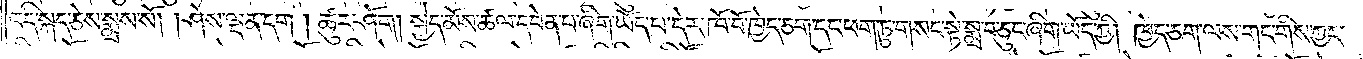འདི་སྐད་ཅེས་སྨྲས་སོ། །ཤེས་ལྡན་དག །ཚུར་ཤོག །སྐྱེད་མོས་ཚལ་དབེན་པ་ཞིག་ཡོད་པ་དེར་ཁོ་བོ་ཁྱེད་ཅག་དང་ཕག་ཏུ་གསང་སྟེ་སྨྲ་བ་ཅུང་ཞིག་ཡོད་ཀྱི། ཁྱེད་ཅག་ལས་གང་གིས་ཀྱང་
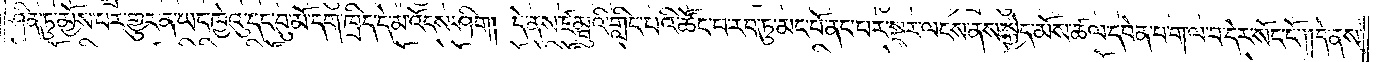ཤིན་ཏུ་མྱོས་པར་གྱུར་ན་ཡང་ཁྱེའུ་དང་བུ་མོ་དག་ཁྲིད་དེ་མ་འོངས་ཤིག། དེ་ནས་ཛམྦུའི་གླིང་པའི་ཚོང་པ་རབ་ཏུ་མང་པོ་ནང་པར་སྔར་ལངས་ནས་སྐྱེད་མོས་ཚལ་དབེན་པ་ག་ལ་བ་དེར་སོང་ངོ༌། །དེ་ནས་
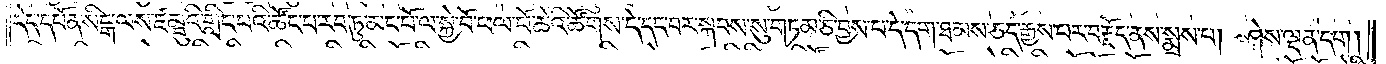དེད་དཔོན་སིངྒ་ལས་ཛམྦུའི་གླིང་པའི་ཚོང་པ་རབ་ཏུ་མང་པོ་ལ་སྐྱེ་བོ་ཕལ་པོ་ཆེའི་ཚོགས་དེ་དང་བར་སྐབས་སུ་གཏམ་ཅི་བྱས་པ་དེ་དག་ཐམས་ཅད་རྒྱས་པར་བརྗོད་ནས་སྨྲས་པ། ཤེས་ལྡན་དག །
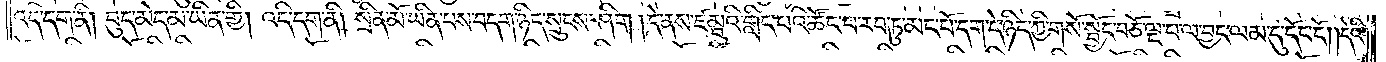འདི་དག་ནི། བུད་མེད་མ་ཡིན་གྱི། འདི་དག་ནི། སྲིན་མོ་ཡིན་པས་བདག་ཉིད་སྲུང་ཤིག །དེ་ནས་ཛམྦུའི་གླིང་པའི་ཚོང་པ་རབ་ཏུ་མང་པོ་དག་དེ་ཉིད་ཀྱི་གསོ་སྦྱོང་བཅོ་ལྔ་པ་ལ་བྱང་ལམ་དུ་དོང་ངོ༌། །དེའི་
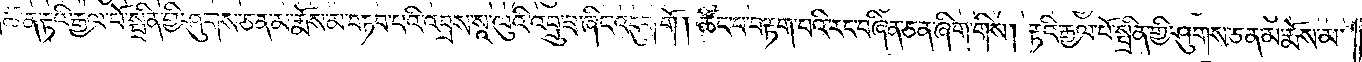ཚེ་ན་རྟའི་རྒྱལ་པོ་སྤྲིན་གྱི་ཤུགས་ཅན་མ་རྨོས་མ་བཏབ་པའི་འབྲས་སཱ་ལུའི་འབྲུ་ཟ་ཞིང་འདུག་གོ། ཚོང་པ་བརྟག་པའི་རང་བཞིན་ཅན་ཞིག་གིས། རྟའི་རྒྱལ་པོ་སྤྲིན་གྱི་ཤུགས་ཅན་མ་རྨོས་མ་
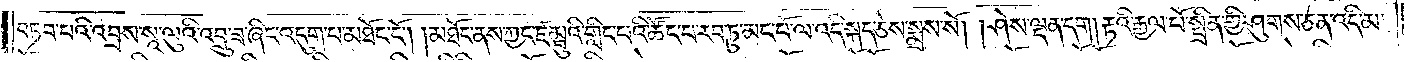བཏབ་པའི་འབྲས་སཱ་ལུའི་འབྲུ་ཟ་ཞིང་འདུག་པ་མཐོང་ངོ༌། །མཐོང་ནས་ཀྱང་ཛམྦུའི་གླིང་པའི་ཚོང་པ་རབ་ཏུ་མང་པོ་ལ་འདི་སྐད་ཅེས་སྨྲས་སོ། །ཤེས་ལྡན་དག། རྟའི་རྒྱལ་པོ་སྤྲིན་གྱི་ཤུགས་ཅན་འདི་མ་
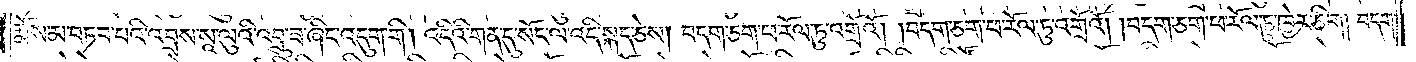རྨོས་མ་བཏབ་པའི་འབྲས་སཱ་ལུའི་འབྲུ་ཟ་ཞིང་འདུག་གི། འདིའི་གན་དུ་སོང་ལ་འདི་སྐད་ཅེས། བདག་ཅག་ཕ་རོལ་ཏུ་འགྲོའོ། །བདག་ཅག་ཕ་རོལ་ཏུ་འགྲོའོ། །བདག་ཅག་ཕ་རོལ་ཏུ་ཁྱེར་ཅིག། བདག་
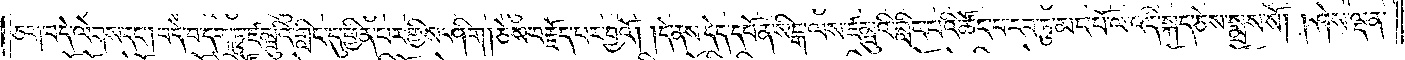ཅག་བདེ་ལེགས་དང༌། བདེ་བ་དག་ཏུ་ཛམྦུའི་གླིང་དུ་ཕྱིན་པར་གྱིས་ཤིག། ཅེས་བརྗོད་པར་བྱའོ། །དེ་ནས་དེད་དཔོན་སིངྒ་ལས་ཛམྦུའི་གླིང་པའི་ཚོང་པ་རབ་ཏུ་མང་པོ་ལ་འདི་སྐད་ཅེས་སྨྲས་སོ། །ཤེས་ལྡན་
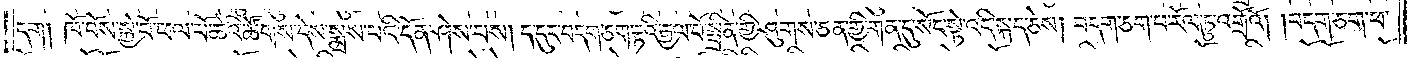དག། ཁོ་བོས་སྐྱེ་བོ་ཕལ་པོ་ཆེའི་ཚོགས་དེས་སྨྲས་པའི་དོན་ཤེས་པས། ད་དུང་བདག་ཅག་རྟའི་རྒྱལ་པོ་སྤྲིན་གྱི་ཤུགས་ཅན་གྱི་གན་དུ་སོང་སྟེ་འདི་སྐད་ཅེས། བདག་ཅག་ཕ་རོལ་ཏུ་འགྲོའོ། །བདག་ཅག་ཕ་
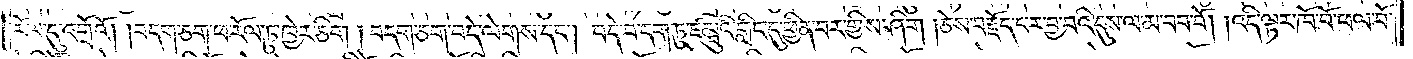རོལ་དུ་འགྲོའོ། །བདག་ཅག་ཕ་རོལ་ཏུ་ཁྱེར་ཅིག། བདག་ཅག་བདེ་ལེགས་དང༌། བདེ་བ་དག་ཏུ་ཛམྦུའི་གླིང་དུ་ཕྱིན་པར་གྱིས་ཤིག །ཅེས་བརྗོད་པར་བྱ་བའི་དུས་ལ་མ་བབ་བོ། །འདི་ལྟར་ཁོ་བོ་ཕལ་པོ་
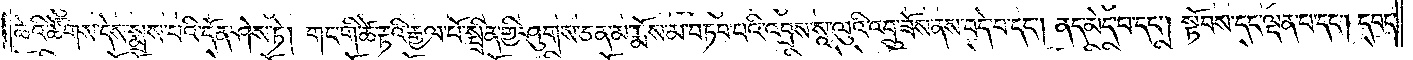ཆེའི་ཚོགས་དེས་སྨྲས་པའི་དོན་ཤེས་ཏེ། གང་གི་ཚེ་རྟའི་རྒྱལ་པོ་སྤྲིན་གྱི་ཤུགས་ཅན་མ་རྨོས་མ་བཏབ་པའི་འབྲས་སཱ་ལུའི་འབྲུ་ཟོས་ནས་བདེ་བ་དང༌། ནད་མེད་པ་དང༌། སྟོབས་དང་ལྡན་པ་དང༌། དབང་
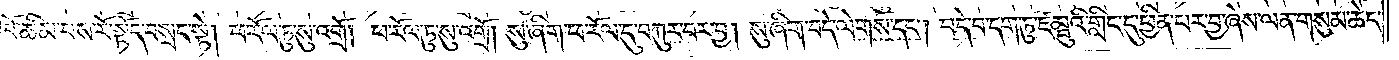པོ་ཚིམ་པས་རོ་སྟོད་བསྲང་སྟེ། ཕ་རོལ་ཏུ་སུ་འགྲོ། ཕ་རོལ་ཏུ་སུ་འགྲོ། སུ་ཞིག་ཕ་རོལ་དུ་བཀུར་བར་བྱ། སུ་ཞིག་བདེ་ལེགས་དང༌། བདེ་བ་དག་ཏུ་ཛམྦུའི་གླིང་དུ་ཕྱིན་པར་བྱ་ཞེས་ལན་གསུམ་ཆེད་
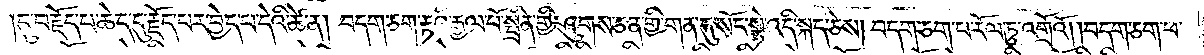།དུ་བརྗོད་པ་ཆེད་དུ་རྗོད་པར་བྱེད་པ་དེའི་ཚེ་ན། བདག་ཅག་རྟའི་རྒྱལ་པོ་སྤྲིན་གྱི་ཤུགས་ཅན་གྱི་གན་དུ་སོང་སྟེ་འདི་སྐད་ཅེས། བདག་ཅག་ཕ་རོལ་ཏུ་འགྲོའོ། །བདག་ཅག་ཕ་
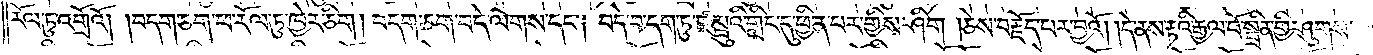རོལ་ཏུ་འགྲོའོ། །བདག་ཅག་ཕ་རོལ་ཏུ་ཁྱེར་ཅིག །བདག་ཅག་བདེ་ལེགས་དང༌། བདེ་བ་དག་ཏུ་ཛམྦུའི་གླིང་དུ་ཕྱིན་པར་གྱིས་ཤིག །ཅེས་བརྗོད་པར་བྱའོ། །དེ་ནས་རྟའི་རྒྱལ་པོ་སྤྲིན་གྱི་ཤུགས་
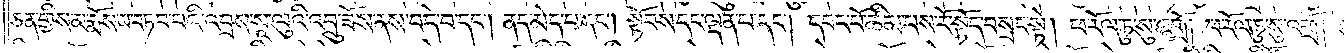ཅན་གྱིས་མ་རྨོས་མ་བཏབ་པའི་འབྲས་སཱ་ལུའི་འབྲུ་ཟོས་ནས་བདེ་བ་དང༌། ནད་མེད་པ་དང༌། སྟོབས་དང་ལྡན་པ་དང༌། དབང་པོ་ཚིམ་པས་རོ་སྟོད་བསྲང་སྟེ། ཕ་རོལ་ཏུ་སུ་འགྲོ། ཕ་རོལ་ཏུ་སུ་འགྲོ།
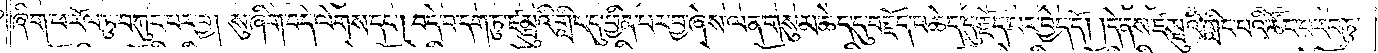ཞིག་ཕ་རོལ་ཏུ་བཀུར་བར་བྱ། སུ་ཞིག་བདེ་ལེགས་དང༌། བདེ་བ་དག་ཏུ་ཛམྦུའི་གླིང་དུ་ཕྱིན་པར་བྱ་ཞེས་ལན་གསུམ་ཆེད་དུ་བརྗོད་པ་ཆེད་དུ་རྗོད་པར་བྱེད་དོ། །དེ་ནས་ཛམྦུའི་གླིང་པའི་ཚོང་པ་རབ་ཏུ་
